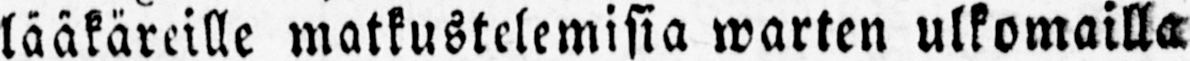lääkäreille matkustelemisia warten ulkomailla
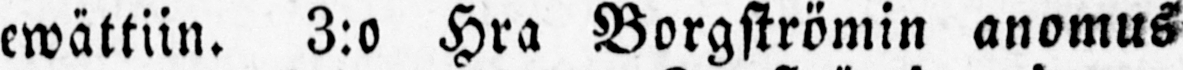ewättiin. 3:o Hra Borgströmin anomus
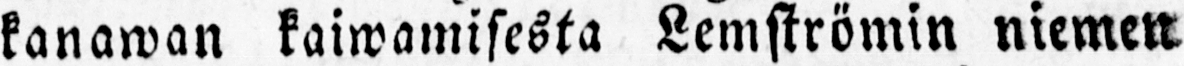kanawan kaiwamisesta Lemströmin niemen
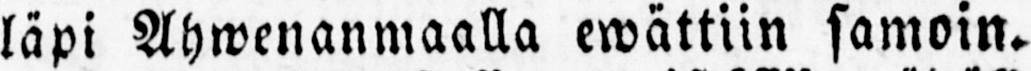läpi Ahwenanmaalla ewättiin samoin.
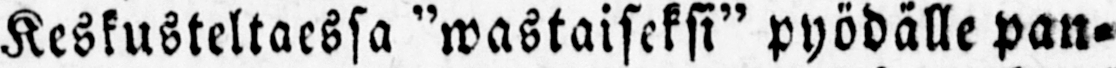Keskusteltaessa ”wastaiseksi” pyödälle pan-
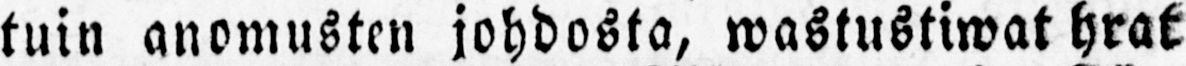tuin anomusten johdosta, wastustiwat hrat
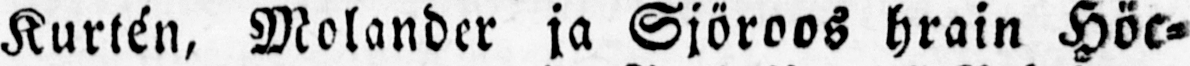Kurtén, Molander ja Sjöroos hrain Höc-
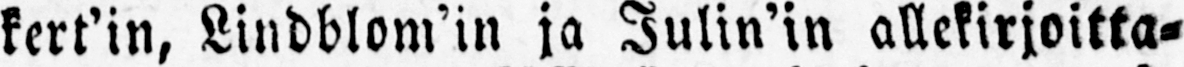kert’in, Lindblom’in ja Julin’in allekirjoitta-
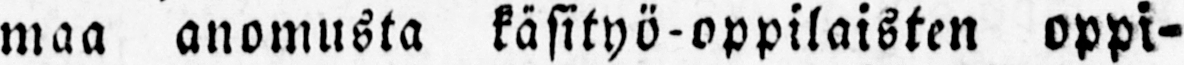maa anomusta käsityö-oppilaisten oppi-
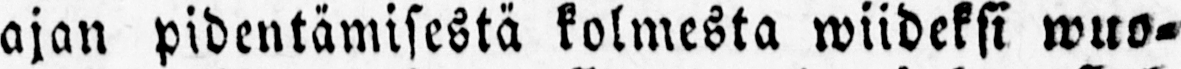ajan pidentämisestä kolmesta wiideksi wuo-
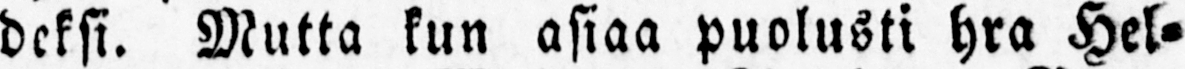deksi. Mutta kun asiaa puolusti hra Hel-
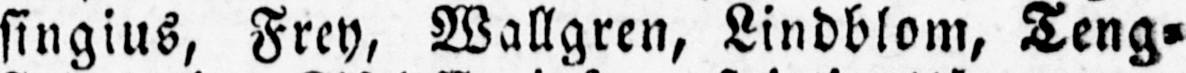singius, Frey, Wallgren, Lindblom, Teng-
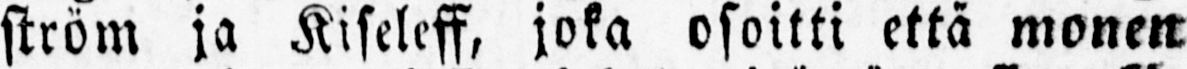ström ja Kiseleff, joka osoitti että monen
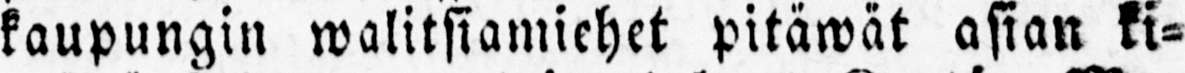kaupungin walitsiamiehet pitäwät asian ki-
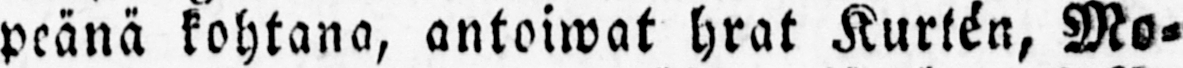peänä kohtana, antoiwat hrat Kurtén, Mo-
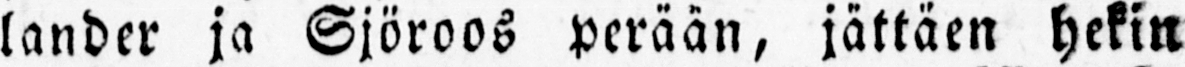lander ja Sjöroos perään, jättäen hekin
